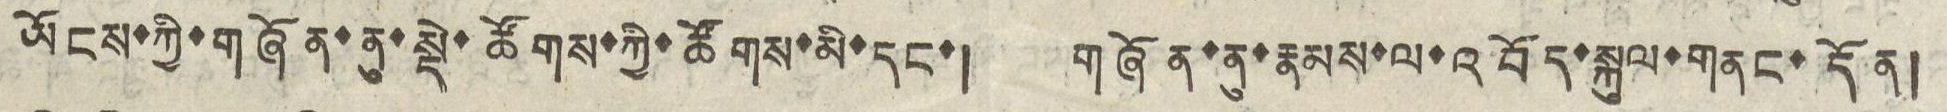ཡོངས་ཀྱི་གཞོན་ནུ་སྡེ་ཚོགས་ཀྱི་ཚོགས་མི་དང་། གཞོན་ནུ་རྣམས་ལ་འབོད་སྐུལ་གནང་དོན།
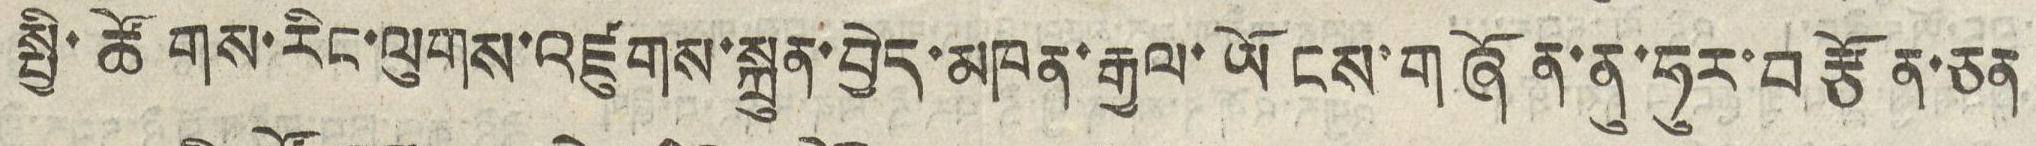སྤྱི་ཚོགས་རིང་ལུགས་འཛུགས་སྐྲུན་བྱེད་མཁན་རྒྱལ་ཡོངས་གཞོན་ནུ་ཧུར་བརྩོན་ཅན
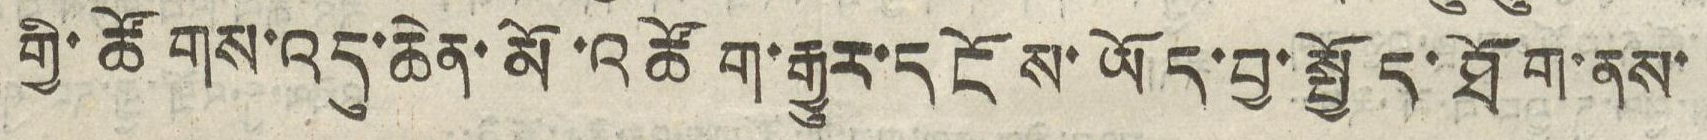གྱི་ཚོགས་འདུ་ཆེན་མོ་འཚོག་རྒྱུར་དངོས་ཡོད་བྱ་སྤྱོད་ཐོག་ནས་
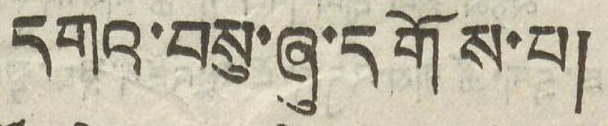དགའ་བསུ་ཞུ་དགོས་པ།
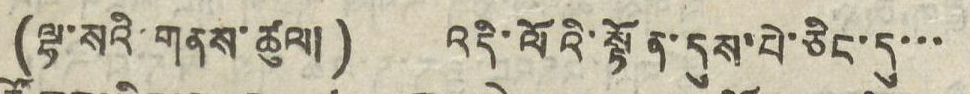(ལྷ་སའི་གནས་ཚུལ།) འདི་ལོའི་སྟོན་དུས་པེ་ཅིང་དུ་་་
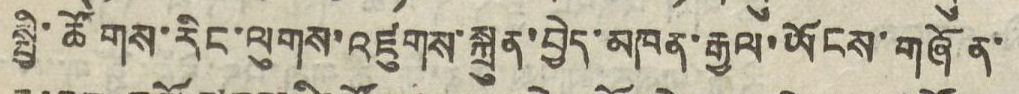སྤྱི་ཚོགས་རིང་ལུགས་འཛུགས་སྐྲུན་བྱེད་མཁན་རྒྱལ་ཡོངས་གཞོན་
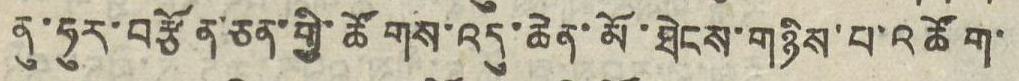ནུ་ཧུར་བརྩོན་ཅན་གྱི་ཚོགས་འདུ་ཆེན་མོ་ཐེངས་གཉིས་པ་འཚོག་
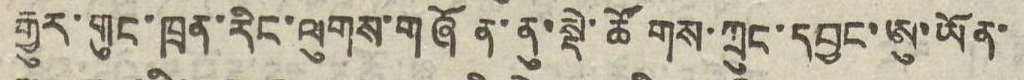རྒྱུར་གུང་ཁྲན་རིང་ལུགས་གཞོན་ནུ་སྡེ་ཚོགས་ཀྲུང་དབྱང་ཨུ་ཡོན་
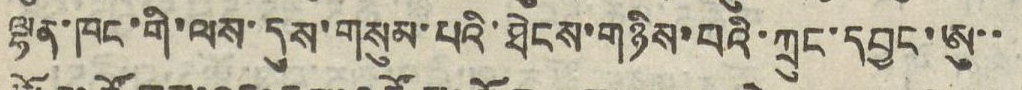ལྷན་ཁང་གི་ལས་དུས་གསུམ་པའི་ཐེངས་གཉིས་པའི་ཀྲུང་དབྱང་ཨུ་་
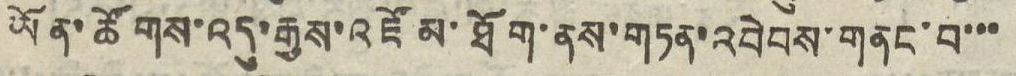ཡོན་ཚོགས་འདུ་རྒྱས་འཛོམ་ཐོག་ནས་གཏན་འབེབས་གནང་བ་་་
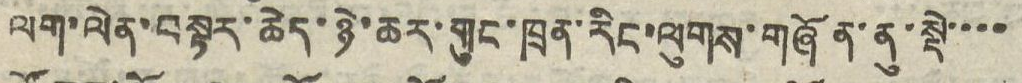ལག་ལེན་བསྟར་ཆེད་ཉེ་ཆར་གུང་ཁྲན་རིང་ལུགས་གཞོན་ནུ་སྡེ་་་་
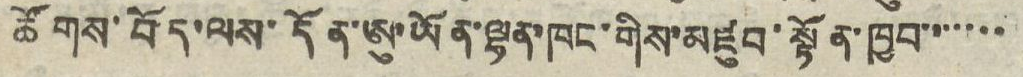ཚོགས་བོད་ལས་དོན་ཨུ་ཡོན་ལྷན་ཁང་གིས་མཛུབ་སྟོན་ཁྱབ་་་་་་་
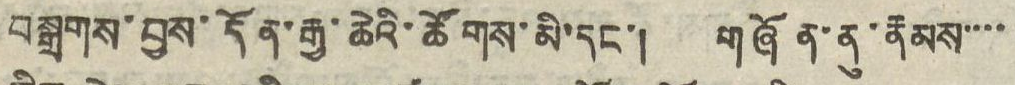བསྒྲགས་བྱས་དོན་རྒྱ་ཆེའི་ཚོགས་མི་དང་། གཞོན་ནུ་རྣམས་་་་
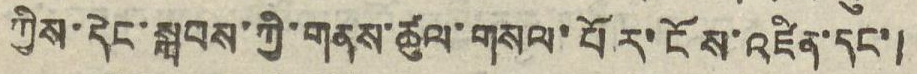ཀྱིས་དེང་སྐབས་ཀྱི་གནས་ཚུལ་གསལ་པོར་ངོས་འཛིན་དང་།
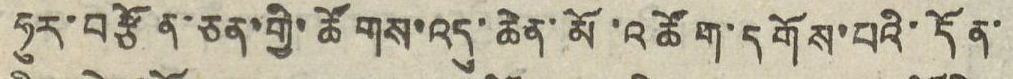ཧུར་བརྩོན་ཅན་གྱི་ཚོགས་འདུ་ཆེན་མོ་འཚོག་དགོས་པའི་དོན་
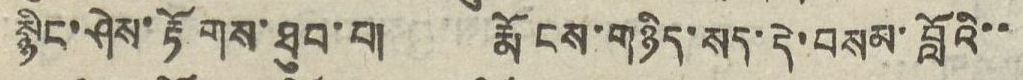སྙིང་ཤེས་རྟོགས་ཐུབ་པ། རྨོངས་གཉིད་སད་དེ་བསམ་བློའི་་
